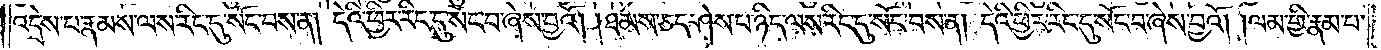འདྲེས་པ་རྣམས་ལས་རིང་དུ་སོང་བས་ན། དེའི་ཕྱིར་རིང་དུ་སོང་བ་ཞེས་བྱའོ། །ཐམས་ཅད་ཤེས་པ་ཉིད་ལས་རིང་དུ་སོང་བས་ན། དེའི་ཕྱིར་རིང་དུ་སོང་བ་ཞེས་བྱའོ། །ལམ་གྱི་རྣམ་པ་
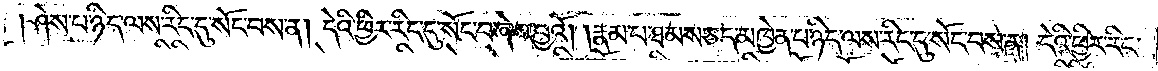ཤེས་པ་ཉིད་ལས་རིང་དུ་སོང་བས་ན། དེའི་ཕྱིར་རིང་དུ་སོང་བ་ཞེས་བྱའོ། །རྣམ་པ་ཐམས་ཅད་མཁྱེན་པ་ཉིད་ལས་རིང་དུ་སོང་བས་ན། དེའི་ཕྱིར་རིང་
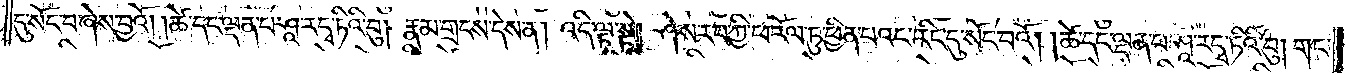དུ་སོང་བ་ཞེས་བྱའོ། །ཚེ་དང་ལྡན་པ་ཤཱ་ར་དྭ་ཏིའི་བུ། རྣམ་གྲངས་དེས་ན། འདི་ལྟ་སྟེ། ཤེས་རབ་ཀྱི་ཕ་རོལ་ཏུ་ཕྱིན་པའང་རིང་དུ་སོང་བའོ། །ཚེ་དང་ལྡན་པ་ཤཱ་ར་དྭ་ཏིའི་བུ། གང་
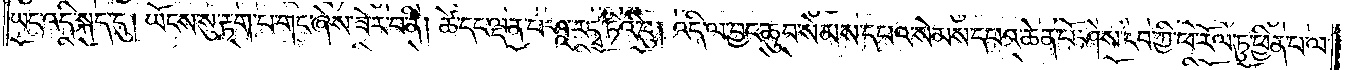ཡང་འདི་སྐད་དུ། ཡོངས་སུ་རྟག་པ་གང་ཞེས་ཟེར་བ་ནི། ཚེ་དང་ལྡན་པ་ཤཱ་ར་དྭ་ཏིའི་བུ། འདི་ལ་བྱང་ཆུབ་སེམས་དཔའ་སེམས་དཔའ་ཆེན་པོ་ཤེས་རབ་ཀྱི་ཕ་རོལ་ཏུ་ཕྱིན་པ་ལ་
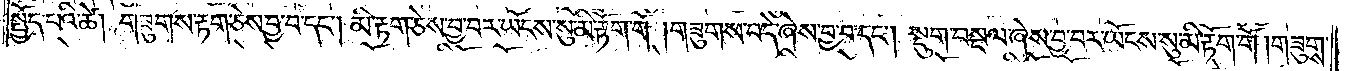སྤྱོད་པའི་ཚེ། གཟུགས་རྟག་ཅེས་བྱ་བ་དང༌། མི་རྟག་ཅེས་བྱ་བར་ཡོངས་སུ་མི་རྟོག་གོ །གཟུགས་བདེ་ཞེས་བྱ་བ་དང༌། སྡུག་བསྔལ་ཞེས་བྱ་བར་ཡོངས་སུ་མི་རྟོག་གོ །གཟུགས་
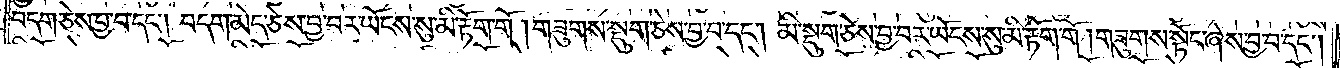བདག་ཅེས་བྱ་བ་དང༌། བདག་མེད་ཅེས་བྱ་བར་ཡོངས་སུ་མི་རྟོག་གོ །གཟུགས་སྡུག་ཅེས་བྱ་བ་དང་མི་སྡུག་ཅེས་བྱ་བར་ཡོངས་སུ་མི་རྟོག་གོ །གཟུགས་སྟོང་ཞེས་བྱ་བ་དང་
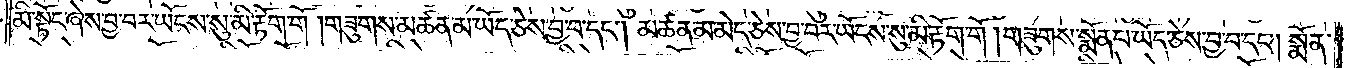མི་སྟོང་ཞེས་བྱ་བར་ཡོངས་སུ་མི་རྟོག་གོ །གཟུགས་མཚན་མ་ཡོད་ཅེས་བྱ་བ་དང༌། མཚན་མ་མེད་ཅེས་བྱ་བར་ཡོངས་སུ་མི་རྟོག་གོ །གཟུགས་སྨོན་པ་ཡོད་ཅེས་བྱ་བ་དང་སྨོན་
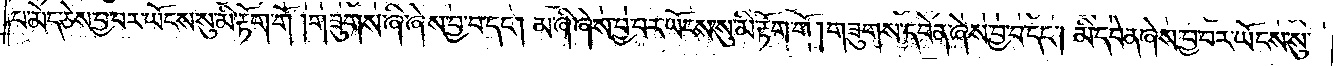པ་མེད་ཅེས་བྱ་བར་ཡོངས་སུ་མི་རྟོག་གོ །གཟུགས་ཞི་ཞེས་བྱ་བ་དང༌། མ་ཞི་ཞེས་བྱ་བར་ཡོངས་སུ་མི་རྟོག་གོ །གཟུགས་དབེན་ཞེས་བྱ་བ་དང༌། མི་དབེན་ཞེས་བྱ་བར་ཡོངས་སུ་
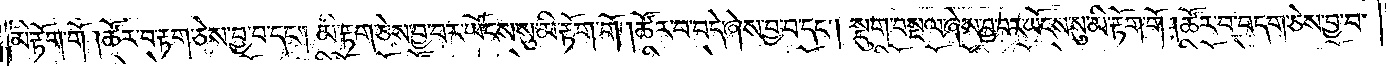མི་རྟོག་གོ །ཚོར་བ་རྟག་ཅེས་བྱ་བ་དང༌། མི་རྟག་ཅེས་བྱ་བར་ཡོངས་སུ་མི་རྟོག་གོ །ཚོར་བ་བདེ་ཞེས་བྱ་བ་དང༌། སྡུག་བསྔལ་ཞེས་བྱ་བར་ཡོངས་སུ་མི་རྟོག་གོ །ཚོར་བ་བདག་ཅེས་བྱ་བ་
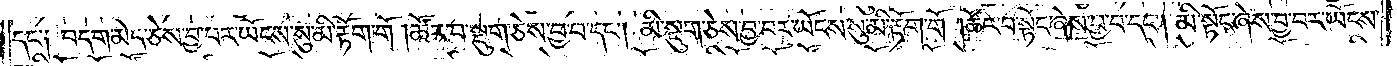དང༌། བདག་མེད་ཅེས་བྱ་བར་ཡོངས་སུ་མི་རྟོག་གོ །ཚོར་བ་སྡུག་ཅེས་བྱ་བ་དང༌། མི་སྡུག་ཅེས་བྱ་བར་ཡོངས་སུ་མི་རྟོག་གོ །ཚོར་བ་སྟོང་ཞེས་བྱ་བ་དང༌། མི་སྟོང་ཞེས་བྱ་བར་ཡོངས་
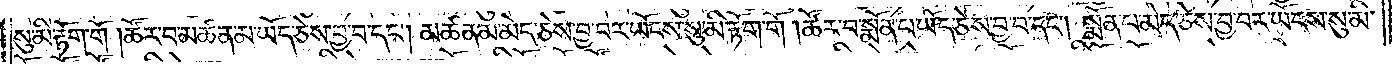སུ་མི་རྟོག་གོ །ཚོར་བ་མཚན་མ་ཡོད་ཅེས་བྱ་བ་དང༌། མཚན་མ་མེད་ཅེས་བྱ་བར་ཡོངས་སུ་མི་རྟོག་གོ །ཚོར་བ་སྨོན་པ་ཡོད་ཅེས་བྱ་བ་དང༌། སྨོན་པ་མེད་ཅེས་བྱ་བར་ཡོངས་སུ་མི་
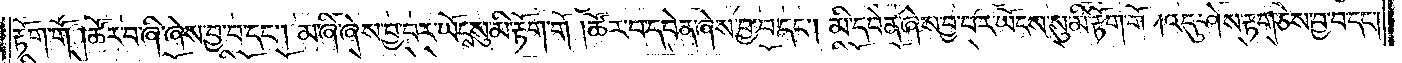རྟོག་གོ །ཚོར་བ་ཞི་ཞེས་བྱ་བ་དང༌། མ་ཞི་ཞེས་བྱ་བར་ཡོངས་སུ་མི་རྟོག་གོ །ཚོར་བ་དབེན་ཞེས་བྱ་བ་དང༌། མི་དབེན་ཞེས་བྱ་བར་ཡོངས་སུ་མི་རྟོག་གོ །འདུ་ཤེས་རྟག་ཅེས་བྱ་བ་དང༌།
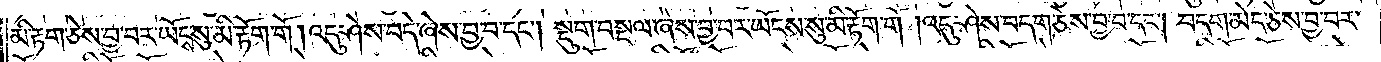མི་རྟག་ཅེས་བྱ་བར་ཡོངས་སུ་མི་རྟོག་གོ །འདུ་ཤེས་བདེ་ཞེས་བྱ་བ་དང༌། སྡུག་བསྔལ་ཞེས་བྱ་བར་ཡོངས་སུ་མི་རྟོག་གོ །འདུ་ཤེས་བདག་ཅེས་བྱ་བ་དང༌། བདག་མེད་ཅེས་བྱ་བར་
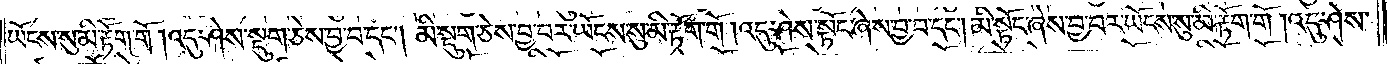ཡོངས་སུ་མི་རྟོག་གོ །འདུ་ཤེས་སྡུག་ཅེས་བྱ་བ་དང༌། མི་སྡུག་ཅེས་བྱ་བར་ཡོངས་སུ་མི་རྟོག་གོ །འདུ་ཤེས་སྟོང་ཞེས་བྱ་བ་དང༌། མི་སྟོང་ཞེས་བྱ་བར་ཡོངས་སུ་མི་རྟོག་གོ །འདུ་ཤེས་
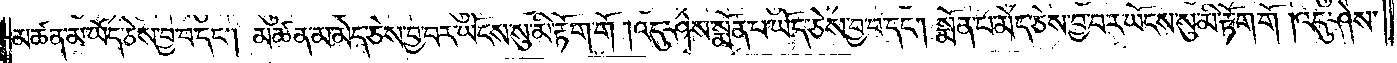མཚན་མ་ཡོད་ཅེས་བྱ་བ་དང༌། མཚན་མ་མེད་ཅེས་བྱ་བར་ཡོངས་སུ་མི་རྟོག་གོ །འདུ་ཤེས་སྨོན་པ་ཡོད་ཅེས་བྱ་བ་དང༌། སྨོན་པ་མེད་ཅེས་བྱ་བར་ཡོངས་སུ་མི་རྟོག་གོ །འདུ་ཤེས་
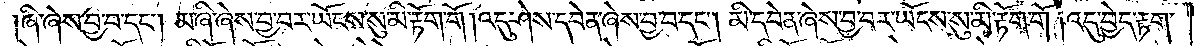ཞི་ཞེས་བྱ་བ་དང༌། མ་ཞི་ཞེས་བྱ་བར་ཡོངས་སུ་མི་རྟོག་གོ །འདུ་ཤེས་དབེན་ཞེས་བྱ་བ་དང༌། མི་དབེན་ཞེས་བྱ་བར་ཡོངས་སུ་མི་རྟོག་གོ །འདུ་བྱེད་རྟག་
